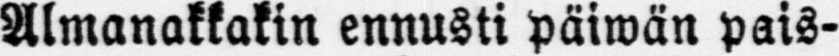Almanakkakin ennusti päiwän pais-
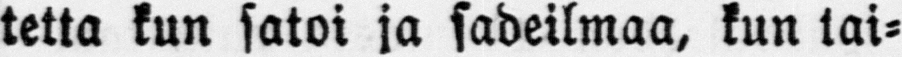tetta kun satoi ja sadeilmaa, kun tai-
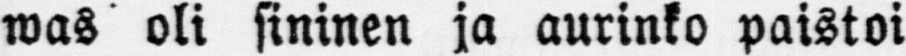was oli sininen ja aurinko paistoi
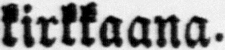kirkkaana.
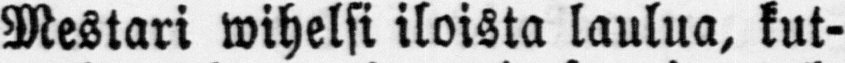Mestari wihelsi iloista laulua, kut-
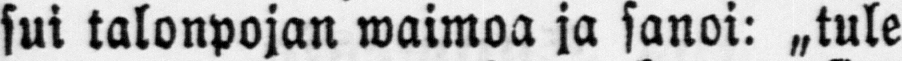sui talonpojan waimoa ja sanoi: „tule
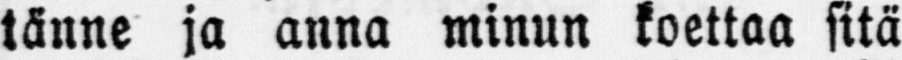tänne ja anna minun koettaa sitä
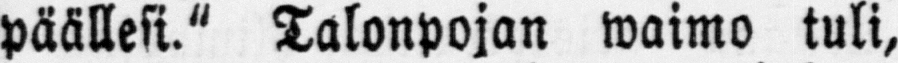päällesi." Talonpojan waimo tuli,
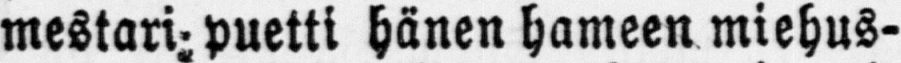mestari puetti hänen hameen miehus-
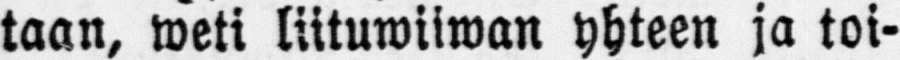taan, weti liituwiiwan yhteen ja toi-
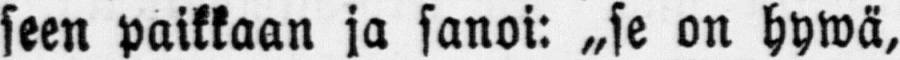seen paikkaan ja sanoi: „se on hywä,
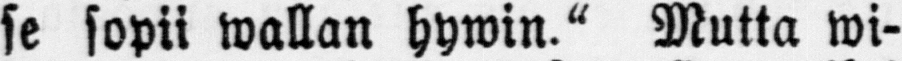se sopii wallan hywin." Mutta wi-
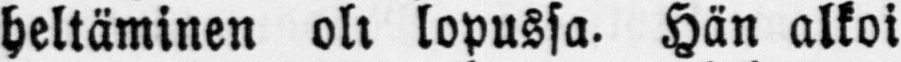heltäminen oli lopussa. Hän alkoi
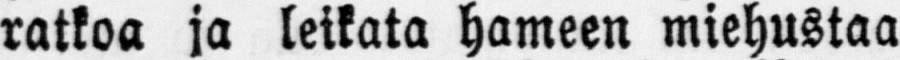ratkoa ja leikata hameen miehustaa
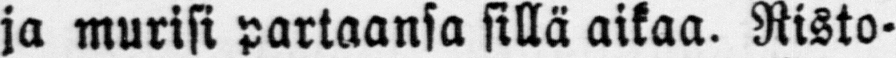ja murisi partaansa sillä aikaa. Risto-
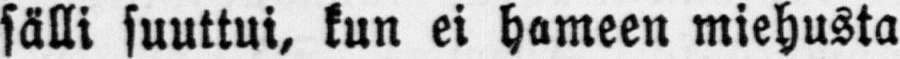sälli suuttui, kun ei hameen miehusta
